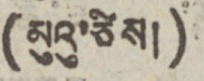(མུའུ་ཙིས།)
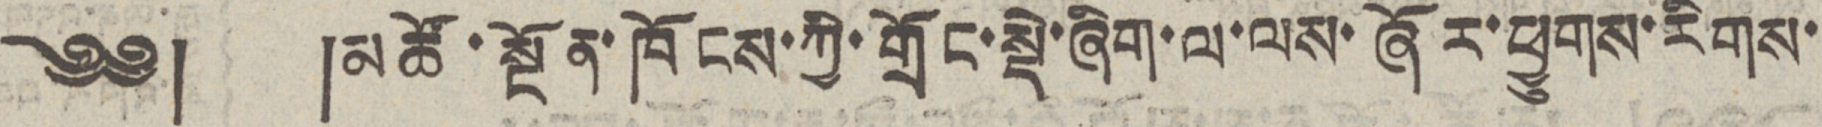༄༅། །མཚོ་སྔོན་ཁོངས་ཀྱི་གྲོང་སྡེ་ཞིག་ལ་ལས་ཞོར་ཕྱུགས་རིགས་
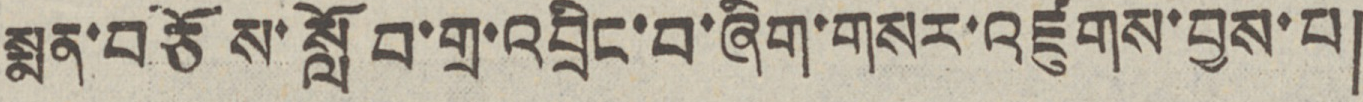སྨན་བཅོས་སློབ་གྲ་འབྲིང་བ་ཞིག་གསར་འཛུགས་བྱས་པ།
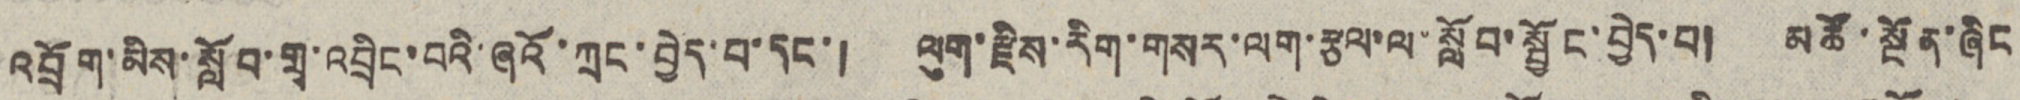འབྲོག་མིས་སློབ་གྲྭ་འབྲིང་བའི་ཞའོ་ཀྲང་བྱེད་པ་དང་། ལུག་རྫིས་རིག་གསར་ལག་རྩལ་ལ་སློབ་སྦྱོང་བྱེད་པ། མཚོ་སྔོན་ཞིང
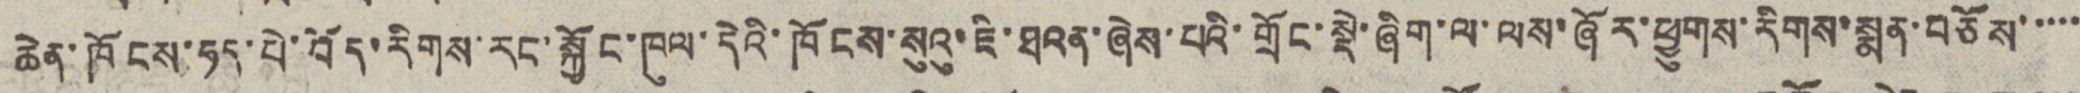ཆེན་ཁོངས་ཧད་པེ་བོད་རིགས་རང་སྐྱོང་ཁུལ་དེའི་ཁོངས་སུའུ་ཇི་ཐའན་ཞེས་པའི་གྲོང་སྡེ་ཞིག་ལ་ལས་ཞོར་ཕྱུགས་རིགས་སྨན་བཅོས་་་་་
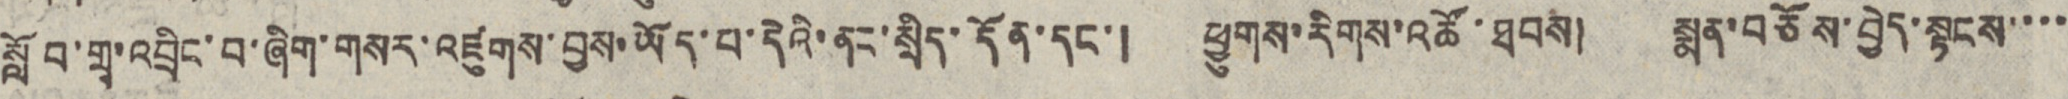སློབ་གྲྭ་འབྲིང་བ་ཞིག་གསར་འཛུགས་བྱས་ཡོད་པ་དེའི་ནང་སྲིད་དོན་དང་། ཕྱུགས་རིགས་འཚོ་ཐབས། སྨན་བཅོས་བྱེད་སྟངས་་་་
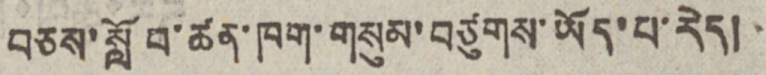བཅས་སློབ་ཚན་ཁག་གསུམ་བཙུགས་ཡོད་པ་རེད།
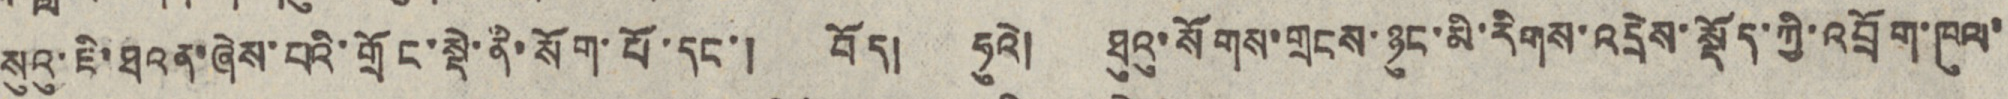སུའུ་ཇི་ཐའན་ཞེས་པའི་གྲོང་སྡེ་ནི་སོག་པོ་དང་། བོད། ཧུའེ། ཐུའུ་སོགས་གྲངས་ཉུང་མི་རིགས་འདྲེས་སྡོད་ཀྱི་འབྲོག་ཁུལ་
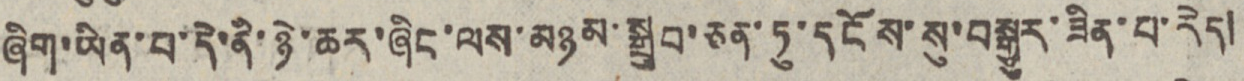ཞིག་ཡིན་པ་དེ་ནི་ཉེ་ཆར་ཞིང་ལས་མཉམ་སྒྲུབ་ཅན་ཏུ་དངོས་སུ་བསྒྱུར་ཟིན་པ་རེད།
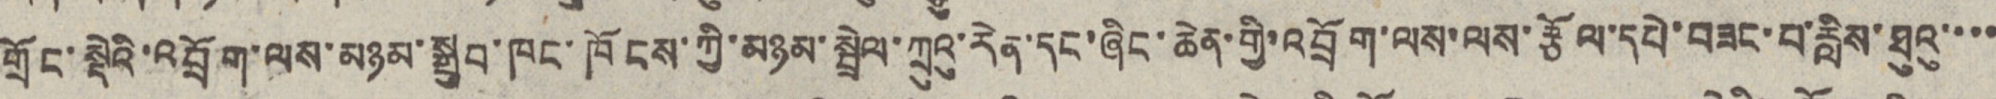གྲོང་སྡེའི་འབྲོག་ལས་མཉམ་སྒྲུབ་ཁང་ཁོངས་ཀྱི་མཉམ་སྦྲེལ་ཀྲུའུ་རེན་དང་ཞིང་ཆེན་གྱི་འབྲོག་ལས་ལས་རྩོལ་དཔེ་བཟང་བ་རླིས་ཐུའུ་་་་
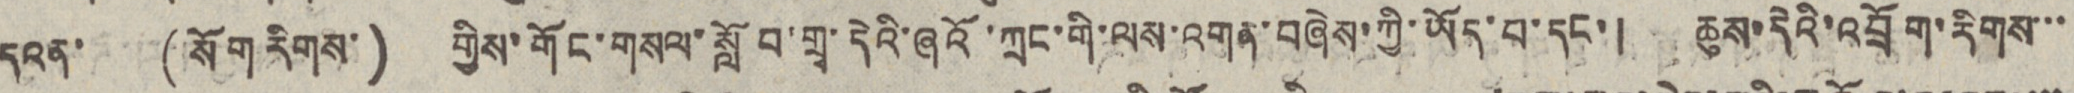དའན་ (སོག རིགས་) གྱིས་གོང་གསལ་སློབ་གྲྭ་དེའི་ཞའོ་ཀྲང་གི་ལས་འགན་བཞེས་ཀྱི་ཡོད་པ་དང་། ཆུས་དེའི་འབྲོག་རིགས་་་
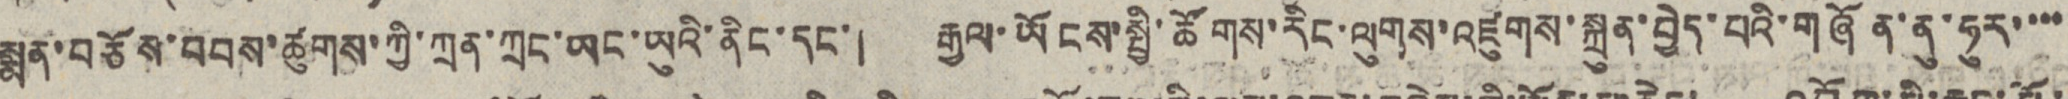སྨན་བཅོས་བབས་ཚུགས་ཀྱི་ཀྲན་ཀྲང་ཡང་ཨུའི་ནིང་དང་། རྒྱལ་ཡོངས་སྤྱི་ཚོགས་རིང་ལུགས་འཛུགས་སྐྲུན་བྱེད་པའི་གཞོན་ནུ་ཧུར་་་་
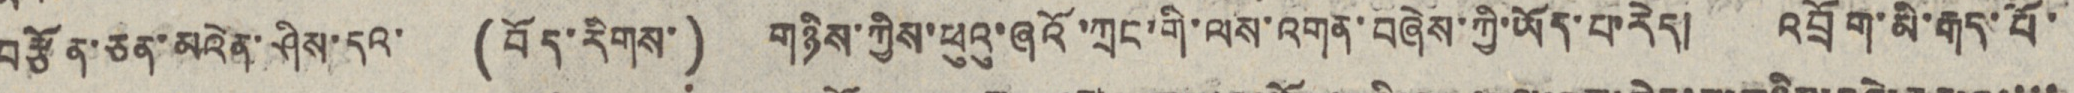བརྩོན་ཅན་མའེན་ཤིས་དའ་ (བོད་རིགས་) གཉིས་ཀྱིས་ཕུའུ་ཞའོ་ཀྲང་གི་ལས་འགན་བཞེས་ཀྱི་ཡོད་པ་རེད། འབྲོག་མི་རྒད་པོ་
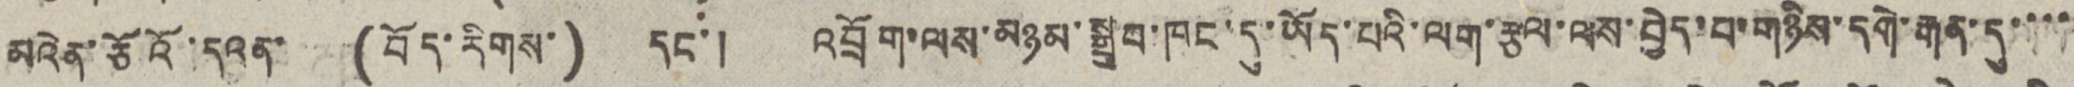མའེན་ཅོའོ་དའན་ (བོད་རིགས་) དང་། འབྲོག་ལས་མཉམ་སྒྲུབ་ཁང་དུ་ཡོད་པའི་ལག་རྩལ་ལས་བྱེད་པ་གཉིས་དགེ་རྒན་དུ་་་་
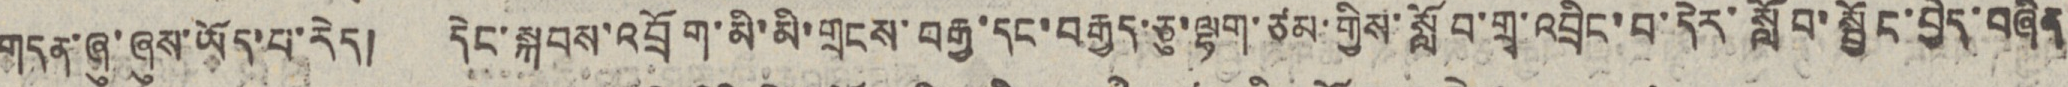གདན་ཞུ་ཞུས་ཡོད་པ་རེད། དེང་སྐབས་འབྲོག་མི་མི་གྲངས་བརྒྱ་དང་བརྒྱད་ཅུ་ལྷག་ཙམ་གྱིས་སློབ་གྲྭ་འབྲིང་བ་དེར་སློབ་སྦྱོང་བྱེད་བཞིན
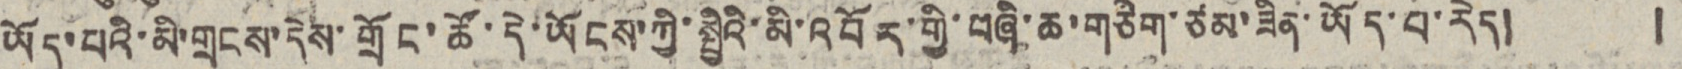ཡོད་པའི་མི་གྲངས་དེས་གྲོང་ཚོ་དེ་ཡོངས་ཀྱི་སྤྱིའི་མི་འབོར་གྱི་བཞི་ཆ་གཅིག་ཙམ་ཟིན་ཡོད་པ་རེད། །
